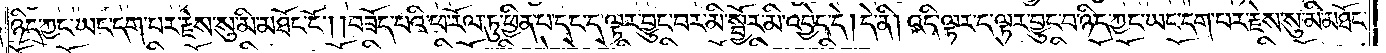ཉིད་ཀྱང་ཡང་དག་པར་རྗེས་སུ་མི་མཐོང་ངོ༌། །བཟོད་པའི་ཕ་རོལ་ཏུ་ཕྱིན་པ་དང་ད་ལྟར་བྱུང་བར་མི་སྦྱོར་མི་འབྱེད་དེ། དེ་ནི། འདི་ལྟར་ད་ལྟར་བྱུང་བ་ཉིད་ཀྱང་ཡང་དག་པར་རྗེས་སུ་མི་མཐོང་
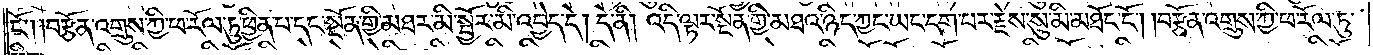ངོ༌། །བརྩོན་འགྲུས་ཀྱི་ཕ་རོལ་ཏུ་ཕྱིན་པ་དང་སྔོན་གྱི་མཐར་མི་སྦྱོར་མི་འབྱེད་དེ། དེ་ནི། འདི་ལྟར་སྔོན་གྱི་མཐའ་ཉིད་ཀྱང་ཡང་དག་པར་རྗེས་སུ་མི་མཐོང་ངོ༌། །བརྩོན་འགྲུས་ཀྱི་ཕ་རོལ་ཏུ་
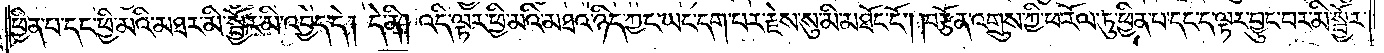ཕྱིན་པ་དང་ཕྱི་མའི་མཐར་མི་སྦྱོར་མི་འབྱེད་དེ། དེ་ནི། འདི་ལྟར་ཕྱི་མའི་མཐའ་ཉིད་ཀྱང་ཡང་དག་པར་རྗེས་སུ་མི་མཐོང་ངོ༌། །བརྩོན་འགྲུས་ཀྱི་ཕ་རོལ་ཏུ་ཕྱིན་པ་དང་ད་ལྟར་བྱུང་བར་མི་སྦྱོར་
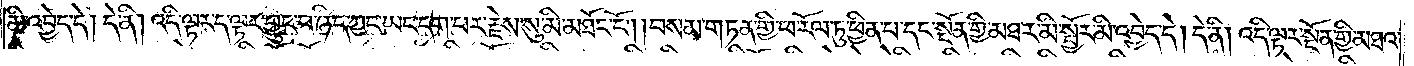མི་འབྱེད་དེ། དེ་ནི། འདི་ལྟར་ད་ལྟར་བྱུང་བ་ཉིད་ཀྱང་ཡང་དག་པར་རྗེས་སུ་མི་མཐོང་ངོ༌། །བསམ་གཏན་གྱི་ཕ་རོལ་ཏུ་ཕྱིན་པ་དང་སྔོན་གྱི་མཐར་མི་སྦྱོར་མི་འབྱེད་དེ། དེ་ནི། འདི་ལྟར་སྔོན་གྱི་མཐའ་
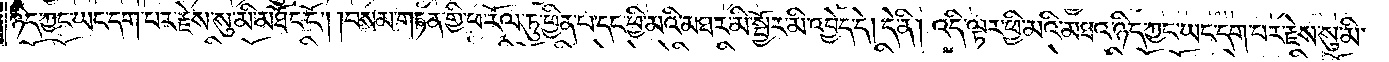ཉིད་ཀྱང་ཡང་དག་པར་རྗེས་སུ་མི་མཐོང་ངོ༌། །བསམ་གཏན་གྱི་ཕ་རོལ་ཏུ་ཕྱིན་པ་དང་ཕྱི་མའི་མཐར་མི་སྦྱོར་མི་འབྱེད་དེ། དེ་ནི། འདི་ལྟར་ཕྱི་མའི་མཐའ་ཉིད་ཀྱང་ཡང་དག་པར་རྗེས་སུ་མི་
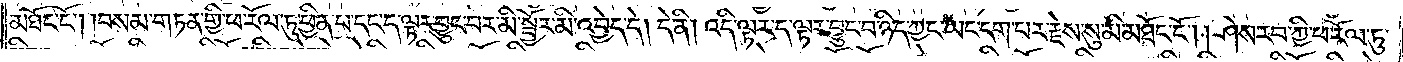མཐོང་ངོ༌། །བསམ་གཏན་གྱི་ཕ་རོལ་ཏུ་ཕྱིན་པ་དང་ད་ལྟར་བྱུང་བར་མི་སྦྱོར་མི་འབྱེད་དེ། དེ་ནི། འདི་ལྟར་ད་ལྟར་བྱུང་བ་ཉིད་ཀྱང་ཡང་དག་པར་རྗེས་སུ་མི་མཐོང་ངོ༌། །ཤེས་རབ་ཀྱི་ཕ་རོལ་ཏུ་
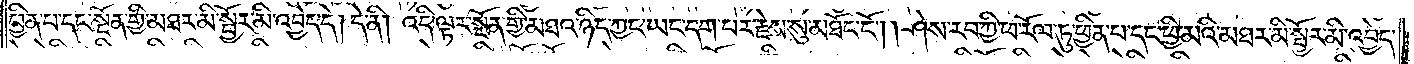ཕྱིན་པ་དང་སྔོན་གྱི་མཐར་མི་སྦྱོར་མི་འབྱེད་དེ། དེ་ནི། འདི་ལྟར་སྔོན་གྱི་མཐའ་ཉིད་ཀྱང་ཡང་དག་པར་རྗེས་སུ་མཐོང་ངོ༌། །ཤེས་རབ་ཀྱི་ཕ་རོལ་ཏུ་ཕྱིན་པ་དང་ཕྱི་མའི་མཐར་མི་སྦྱོར་མི་འབྱེད་
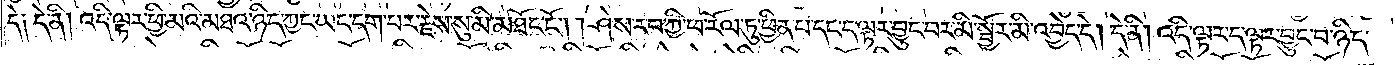དེ༑ དེ་ནི། འདི་ལྟར་ཕྱི་མའི་མཐའ་ཉིད་ཀྱང་ཡང་དག་པར་རྗེས་སུ་མི་མཐོང་ངོ༌། །ཤེས་རབ་ཀྱི་ཕ་རོལ་ཏུ་ཕྱིན་པ་དང་ད་ལྟར་བྱུང་བར་མི་སྦྱོར་མི་འབྱེད་དེ། དེ་ནི། འདི་ལྟར་ད་ལྟར་བྱུང་བ་ཉིད་
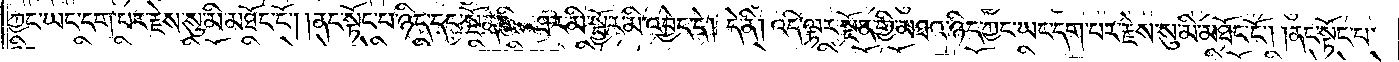ཀྱང་ཡང་དག་པར་རྗེས་སུ་མི་མཐོང་ངོ༌། །ནང་སྟོང་པ་ཉིད་དང་སྔོན་གྱི་མཐར་མི་སྦྱོར་མི་འབྱེད་དེ། དེ་ནི། འདི་ལྟར་སྔོན་གྱི་མཐའ་ཉིད་ཀྱང་ཡང་དག་པར་རྗེས་སུ་མི་མཐོང་ངོ༌། །ནང་སྟོང་པ་
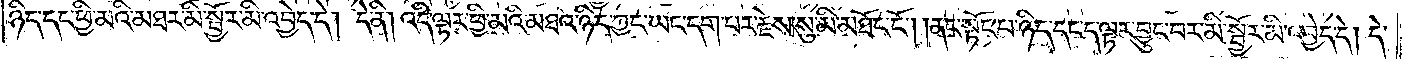ཉིད་དང་ཕྱི་མའི་མཐར་མི་སྦྱོར་མི་འབྱེད་དེ། དེ་ནི། འདི་ལྟར་ཕྱི་མའི་མཐའ་ཉིད་ཀྱང་ཡང་དག་པར་རྗེས་སུ་མི་མཐོང་ངོ༌། །ནང་སྟོང་པ་ཉིད་དང་ད་ལྟར་བྱུང་བར་མི་སྦྱོར་མི་འབྱེད་དེ། དེ་
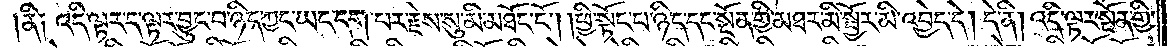ནི༑ འདི་ལྟར་ད་ལྟར་བྱུང་བ་ཉིད་ཀྱང་ཡང་དག་པར་རྗེས་སུ་མི་མཐོང་ངོ༌། །ཕྱི་སྟོང་པ་ཉིད་དང་སྔོན་གྱི་མཐར་མི་སྦྱོར་མི་འབྱེད་དེ། དེ་ནི། འདི་ལྟར་སྔོན་གྱི་
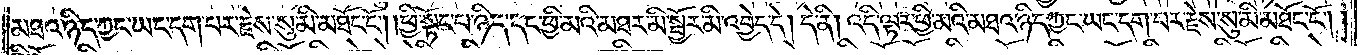མཐའ་ཉིད་ཀྱང་ཡང་དག་པར་རྗེས་སུ་མི་མཐོང་ངོ༌། །ཕྱི་སྟོང་པ་ཉིད་དང་ཕྱི་མའི་མཐར་མི་སྦྱོར་མི་འབྱེད་དེ། དེ་ནི། འདི་ལྟར་ཕྱི་མའི་མཐའ་ཉིད་ཀྱང་ཡང་དག་པར་རྗེས་སུ་མི་མཐོང་ངོ༌། །
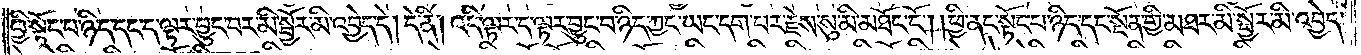ཕྱི་སྟོང་པ་ཉིད་དང་ད་ལྟར་བྱུང་བར་མི་སྦྱོར་མི་འབྱེད་དེ། དེ་ནི། འདི་ལྟར་ད་ལྟར་བྱུང་བ་ཉིད་ཀྱང་ཡང་དག་པར་རྗེས་སུ་མི་མཐོང་ངོ༌། །ཕྱི་ནང་སྟོང་པ་ཉིད་དང་སྔོན་གྱི་མཐར་མི་སྦྱོར་མི་འབྱེད་
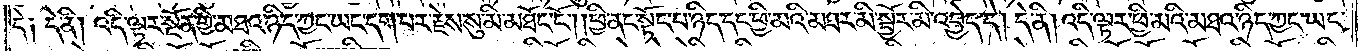དེ༑ དེ་ནི། འདི་ལྟར་སྔོན་གྱི་མཐའ་ཉིད་ཀྱང་ཡང་དག་པར་རྗེས་སུ་མི་མཐོང་ངོ༌། །ཕྱི་ནང་སྟོང་པ་ཉིད་དང་ཕྱི་མའི་མཐར་མི་སྦྱོར་མི་འབྱེད་དེ། དེ་ནི། འདི་ལྟར་ཕྱི་མའི་མཐའ་ཉིད་ཀྱང་ཡང་
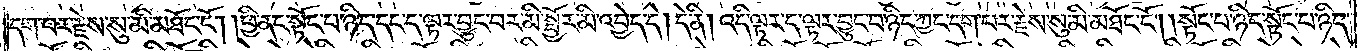དག་པར་རྗེས་སུ་མི་མཐོང་ངོ༌། །ཕྱི་ནང་སྟོང་པ་ཉིད་དང་ད་ལྟར་བྱུང་བར་མི་སྦྱོར་མི་འབྱེད་དེ། དེ་ནི། འདི་ལྟར་ད་ལྟར་བྱུང་བ་ཉིད་ཀྱང་དག་པར་རྗེས་སུ་མི་མཐོང་ངོ༌། །སྟོང་པ་ཉིད་སྟོང་པ་ཉིད་
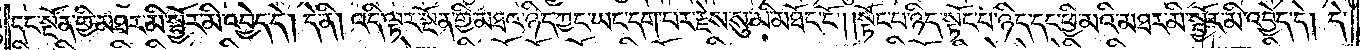དང་སྔོན་གྱི་མཐར་མི་སྦྱོར་མི་འབྱེད་དེ། དེ་ནི། འདི་ལྟར་སྔོན་གྱི་མཐའ་ཉིད་ཀྱང་ཡང་དག་པར་རྗེས་སུ་མི་མཐོང་ངོ༌། །སྟོང་པ་ཉིད་སྟོང་པ་ཉིད་དང་ཕྱི་མའི་མཐར་མི་སྦྱོར་མི་འབྱེད་དེ། དེ་
